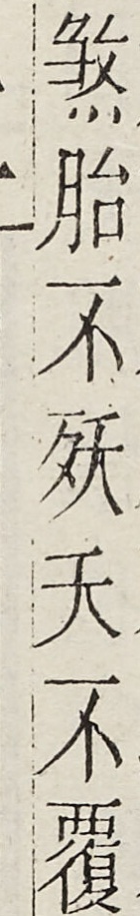煞胎不夭夭不覆
